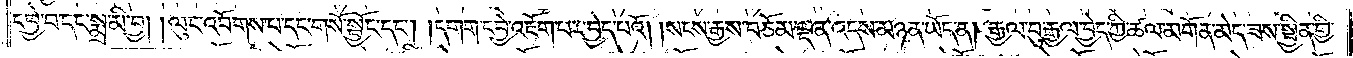དབྱེ་བ་དང་སྨྲ་མི་བྱ། །ལུང་འབོགས་པ་དང་གསོ་སྦྱོང་དང༌། །དགག་དབྱེ་འཇོག་པར་བྱེད་པའོ། །སངས་རྒྱས་བཅོམ་ལྡན་འདས་མཉན་ཡོད་ན། རྒྱལ་བུ་རྒྱལ་བྱེད་ཀྱི་ཚལ་མགོན་མེད་ཟས་སྦྱིན་གྱི་
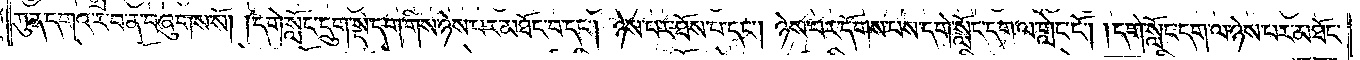ཀུན་དགའ་ར་བ་ན་བཞུགས་སོ། །དགེ་སློང་དྲུག་སྡེ་དག་གིས་ཉེས་པར་མཐོང་བ་དང༌། ཉེས་པར་ཐོས་པ་དང༌། ཉེས་པར་དོགས་པས་དགེ་སློང་དག་ལ་གླེང་ངོ༌། །དགེ་སློང་དག་ལ་ཉེས་པར་མཐོང་
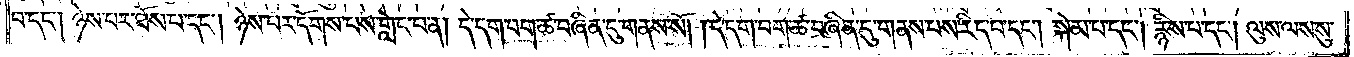པ་དང༌། ཉེས་པར་ཐོས་པ་དང༌། ཉེས་པར་དོགས་པས་གླེང་བ་ན། དེ་དག་བག་ཚ་བཞིན་དུ་གནས་སོ། །དེ་དག་བག་ཚ་བཞིན་དུ་གནས་པས་རིད་པ་དང༌། སྐེམ་པ་དང༌། རྙིས་པ་དང༌། ལུས་ལས་སུ་
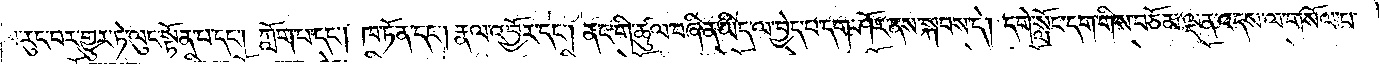མ་རུང་བར་གྱུར་ཏེ་ལུང་སྟོན་པ་དང༌། ཀློག་པ་དང༌། ཁ་ཏོན་དང༌། རྣལ་འབྱོར་དང༌། ནང་གི་ཚུལ་བཞིན་ཡིད་ལ་བྱེད་པ་དག་ཤོར་ནས་སྐབས་དེ། དགེ་སློང་དག་གིས་བཅོམ་ལྡན་འདས་ལ་གསོལ་པ་
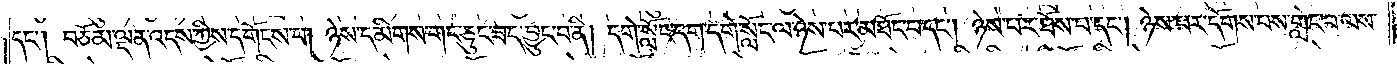དང༌། བཅོམ་ལྡན་འདས་ཀྱིས་དགོངས་པ། ཉེས་དམིགས་གང་ཅུང་ཟད་བྱུང་བ་ནི། དགེ་སློང་དག་དགེ་སློང་ལ་ཉེས་པར་མཐོང་བ་དང༌། ཉེས་པར་ཐོས་པ་དང༌། ཉེས་པར་དོགས་པས་གླེང་བ་ལས་
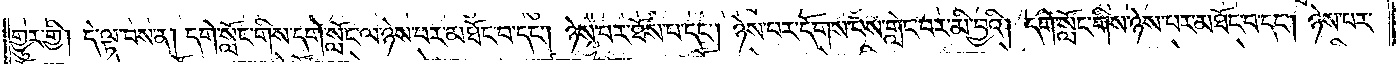གྱུར་གྱི། དེ་ལྟ་བས་ན། དགེ་སློང་གིས་དགེ་སློང་ལ་ཉེས་པར་མཐོང་བ་དང༌། ཉེས་པར་ཐོས་པ་དང༌། ཉེས་པར་དོགས་པས་གླེང་བར་མི་བྱའི། དགེ་སློང་གིས་ཉེས་པར་མཐོང་བ་དང༌། ཉེས་པར་
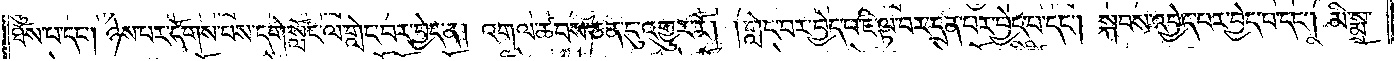ཐོས་པ་དང༌། ཉེས་པར་དོགས་པས་དགེ་སློང་ལ་གླེང་བར་བྱེད་ན། འགལ་ཚབས་ཅན་དུ་འགྱུར་རོ། །གླེང་བར་བྱེད་པ་ཇི་ལྟ་བར་དྲན་པར་བྱེད་པ་དང༌། སྐབས་འབྱེད་པར་བྱེད་པ་དང༌། མི་སྨྲ་
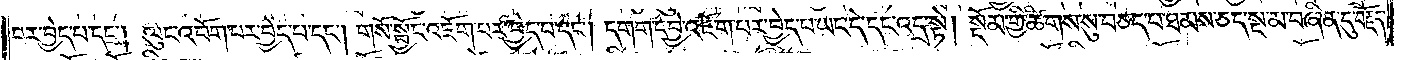བར་བྱེད་པ་དང༌། ལུང་འབོག་པར་བྱེད་པ་དང༌། གསོ་སྦྱོང་འཇོག་པར་བྱེད་པ་དང༌། དགག་དབྱེ་འཇོག་པར་བྱེད་པ་ཡང་དེ་དང་འདྲ་སྟེ། སྡོམ་གྱི་ཚིགས་སུ་བཅད་པ་ཐམས་ཅད་སྔ་མ་བཞིན་དུ་བརྗོད་
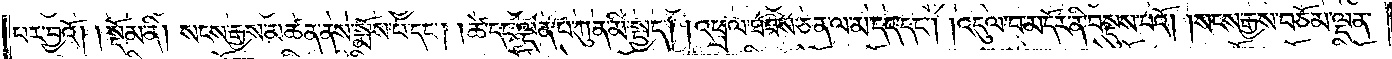པར་བྱའོ།    །སྡོམ་ནི། སངས་རྒྱས་མཚན་ནས་སྨོས་པ་དང༌། །ཚེ་དང་ལྡན་པ་ཀུན་མི་སྤྱད། །འཕྲལ་ཐབས་ཅན་ལ་མ་དད་དང༌། །འདུལ་བ་མདོར་ནི་བསྡུས་པའོ། །སངས་རྒྱས་བཅོམ་ལྡན་
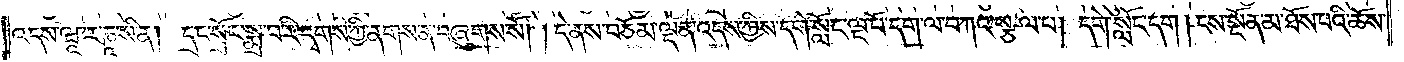འདས་ཝཱ་ར་ཎཱ་སི་ན། དྲང་སྲོང་སྨྲ་བ་རི་དྭགས་ཀྱི་ནགས་ན་བཞུགས་སོ། །དེ་ནས་བཅོམ་ལྡན་འདས་ཀྱིས་དགེ་སློང་ལྔ་པོ་དག་ལ་བཀའ་སྩལ་པ། དགེ་སློང་དག །ངས་སྔོན་མ་ཐོས་པའི་ཆོས་
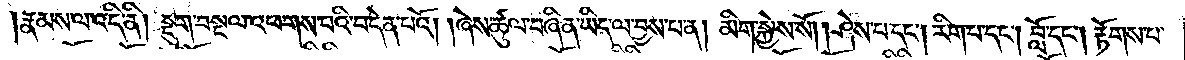རྣམས་ལ་འདི་ནི། སྡུག་བསྔལ་འཕགས་པའི་བདེན་པའོ། །ཞེས་ཚུལ་བཞིན་ཡིད་ལ་བྱས་པ་ན། མིག་སྐྱེས་སོ། །ཤེས་པ་དང༌། རིག་པ་དང༌། བློ་དང༌། རྟོགས་པ་
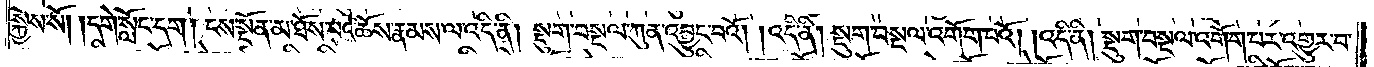སྐྱེས་སོ། །དགེ་སློང་དག །ངས་སྔོན་མ་ཐོས་པའི་ཆོས་རྣམས་ལ་འདི་ནི། སྡུག་བསྔལ་ཀུན་འབྱུང་བའོ། །འདི་ནི། སྡུག་བསྔལ་འགོག་པའོ། །འདི་ནི། སྡུག་བསྔལ་འགོག་པར་འགྱུར་བ་
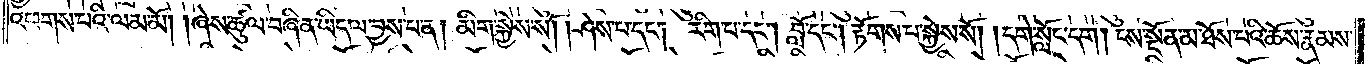འཕགས་པའི་ལམ་མོ། །ཞེས་ཚུལ་བཞིན་ཡིད་ལ་བྱས་པ་ན། མིག་སྐྱེས་སོ། །ཤེས་པ་དང༌། རིག་པ་དང༌། བློ་དང༌། རྟོགས་པ་སྐྱེས་སོ། །དགེ་སློང་དག། ངས་སྔོན་མ་ཐོས་པའི་ཆོས་རྣམས་
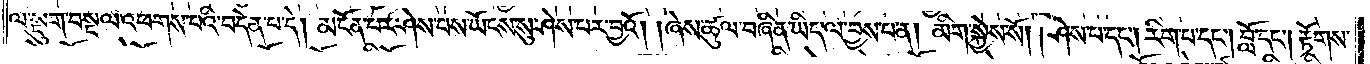ལ་སྡུག་བསྔལ་འཕགས་པའི་བདེན་པ་དེ། མངོན་པར་ཤེས་པས་ཡོངས་སུ་ཤེས་པར་བྱའོ། །ཞེས་ཚུལ་བཞིན་ཡིད་ལ་བྱས་པ་ན། མིག་སྐྱེས་སོ། །ཤེས་པ་དང༌། རིག་པ་དང༌། བློ་དང༌། རྟོགས་
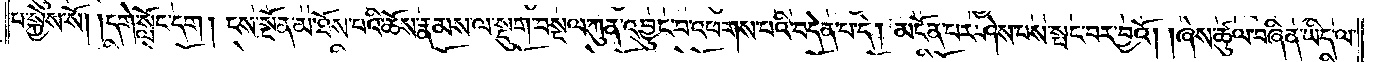པ་སྐྱེས་སོ། །དགེ་སློང་དག། ངས་སྔོན་མ་ཐོས་པའི་ཆོས་རྣམས་ལ་སྡུག་བསྔལ་ཀུན་འབྱུང་བ་འཕགས་པའི་བདེན་པ་དེ། མངོན་པར་ཤེས་པས་སྤང་བར་བྱའོ། །ཞེས་ཚུལ་བཞིན་ཡིད་ལ་
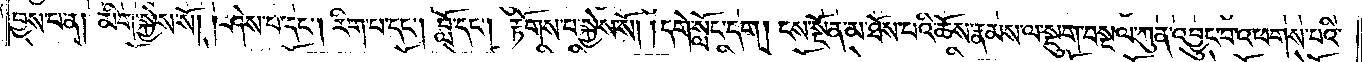བྱས་པ་ན། མིག་སྐྱེས་སོ། །ཤེས་པ་དང༌། རིག་པ་དང༌། བློ་དང༌། རྟོགས་པ་སྐྱེས་སོ། །དགེ་སློང་དག །ངས་སྔོན་མ་ཐོས་པའི་ཆོས་རྣམས་ལ་སྡུག་བསྔལ་ཀུན་འབྱུང་བ་འཕགས་པའི་
